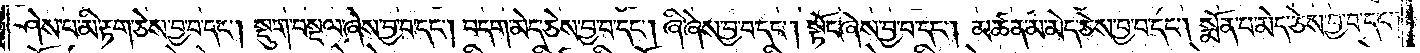ཤེས་པ་མི་རྟག་ཅེས་བྱ་བ་དང༌། སྡུག་བསྔལ་ཞེས་བྱ་བ་དང༌། བདག་མེད་ཅེས་བྱ་བ་དང༌། ཞི་ཞེས་བྱ་བ་དང༌། སྟོང་ཞེས་བྱ་བ་དང༌། མཚན་མ་མེད་ཅེས་བྱ་བ་དང༌། སྨོན་པ་མེད་ཅེས་བྱ་བ་དང༌།
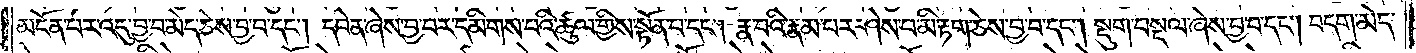མངོན་པར་འདུ་བྱ་བ་མེད་ཅེས་བྱ་བ་དང༌། དབེན་ཞེས་བྱ་བར་དམིགས་པའི་ཚུལ་གྱིས་སྟོན་པ་དང༌། རྣ་བའི་རྣམ་པར་ཤེས་པ་མི་རྟག་ཅེས་བྱ་བ་དང༌། སྡུག་བསྔལ་ཞེས་བྱ་བ་དང༌། བདག་མེད་
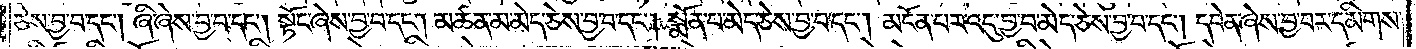ཅེས་བྱ་བ་དང༌། ཞི་ཞེས་བྱ་བ་དང༌། སྟོང་ཞེས་བྱ་བ་དང༌། མཚན་མ་མེད་ཅེས་བྱ་བ་དང༌། སྨོན་པ་མེད་ཅེས་བྱ་བ་དང༌། མངོན་པར་འདུ་བྱ་བ་མེད་ཅེས་བྱ་བ་དང༌། དབེན་ཞེས་བྱ་བར་དམིགས་
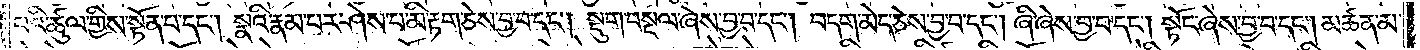པའི་ཚུལ་གྱིས་སྟོན་པ་དང༌། སྣའི་རྣམ་པར་ཤེས་པ་མི་རྟག་ཅེས་བྱ་བ་དང༌། སྡུག་བསྔལ་ཞེས་བྱ་བ་དང༌། བདག་མེད་ཅེས་བྱ་བ་དང༌། ཞི་ཞེས་བྱ་བ་དང༌། སྟོང་ཞེས་བྱ་བ་དང༌། མཚན་མ་
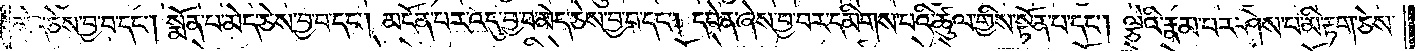མེད་ཅེས་བྱ་བ་དང༌། སྨོན་པ་མེད་ཅེས་བྱ་བ་དང༌། མངོན་པར་འདུ་བྱ་བ་མེད་ཅེས་བྱ་བ་དང༌། དབེན་ཞེས་བྱ་བར་དམིགས་པའི་ཚུལ་གྱིས་སྟོན་པ་དང༌། ལྕེའི་རྣམ་པར་ཤེས་པ་མི་རྟག་ཅེས་
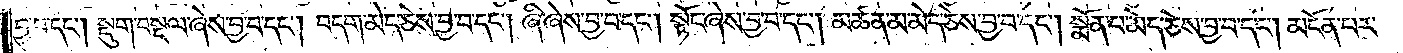བྱ་བ་དང༌། སྡུག་བསྔལ་ཞེས་བྱ་བ་དང༌། བདག་མེད་ཅེས་བྱ་བ་དང༌། ཞི་ཞེས་བྱ་བ་དང༌། སྟོང་ཞེས་བྱ་བ་དང༌། མཚན་མ་མེད་ཅེས་བྱ་བ་དང༌། སྨོན་པ་མེད་ཅེས་བྱ་བ་དང༌། མངོན་པར་
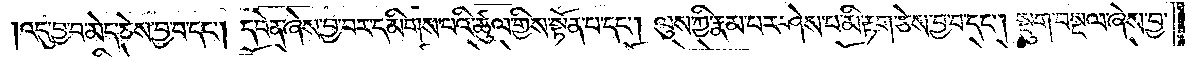འདུ་བྱ་བ་མེད་ཅེས་བྱ་བ་དང༌། དབེན་ཞེས་བྱ་བར་དམིགས་པའི་ཚུལ་གྱིས་སྟོན་པ་དང༌། ལུས་ཀྱི་རྣམ་པར་ཤེས་པ་མི་རྟག་ཅེས་བྱ་བ་དང༌། སྡུག་བསྔལ་ཞེས་བྱ་
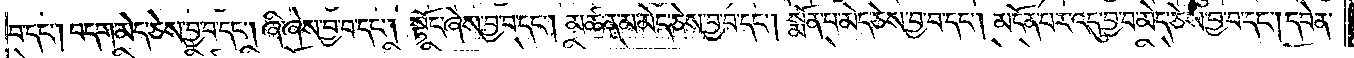བ་དང༌། བདག་མེད་ཅེས་བྱ་བ་དང༌། ཞི་ཞེས་བྱ་བ་དང༌། སྟོང་ཞེས་བྱ་བ་དང༌། མཚན་མ་མེད་ཅེས་བྱ་བ་དང༌། སྨོན་པ་མེད་ཅེས་བྱ་བ་དང༌། མངོན་པར་འདུ་བྱ་བ་མེད་ཅེས་བྱ་བ་དང༌། དབེན་
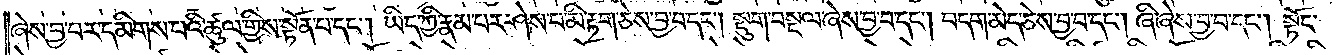ཞེས་བྱ་བར་དམིགས་པའི་ཚུལ་གྱིས་སྟོན་པ་དང༌། ཡིད་ཀྱི་རྣམ་པར་ཤེས་པ་མི་རྟག་ཅེས་བྱ་བ་དང༌། སྡུག་བསྔལ་ཞེས་བྱ་བ་དང༌། བདག་མེད་ཅེས་བྱ་བ་དང༌། ཞི་ཞེས་བྱ་བ་དང༌། སྟོང་
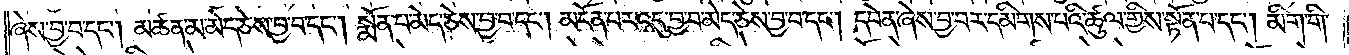ཞེས་བྱ་བ་དང༌། མཚན་མ་མེད་ཅེས་བྱ་བ་དང༌། སྨོན་པ་མེད་ཅེས་བྱ་བ་དང༌། མངོན་པར་འདུ་བྱ་བ་མེད་ཅེས་བྱ་བ་དང༌། དབེན་ཞེས་བྱ་བར་དམིགས་པའི་ཚུལ་གྱིས་སྟོན་པ་དང༌། མིག་གི་
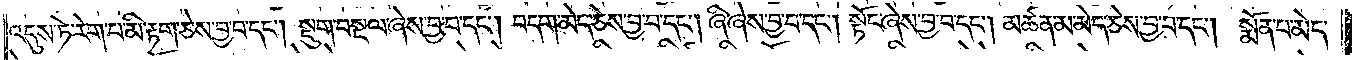འདུས་ཏེ་རེག་པ་མི་རྟག་ཅེས་བྱ་བ་དང༌། སྡུག་བསྔལ་ཞེས་བྱ་བ་དང༌། བདག་མེད་ཅེས་བྱ་བ་དང༌། ཞི་ཞེས་བྱ་བ་དང༌། སྟོང་ཞེས་བྱ་བ་དང༌། མཚན་མ་མེད་ཅེས་བྱ་བ་དང༌། སྨོན་པ་མེད་
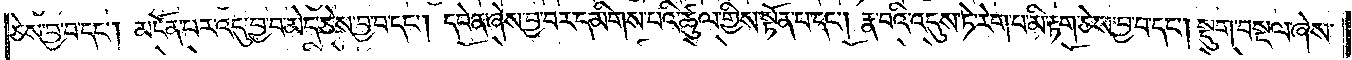ཅེས་བྱ་བ་དང༌། མངོན་པར་འདུ་བྱ་བ་མེད་ཅེས་བྱ་བ་དང༌། དབེན་ཞེས་བྱ་བར་དམིགས་པའི་ཚུལ་གྱིས་སྟོན་པ་དང༌། རྣ་བའི་འདུས་ཏེ་རེག་པ་མི་རྟག་ཅེས་བྱ་བ་དང༌། སྡུག་བསྔལ་ཞེས་
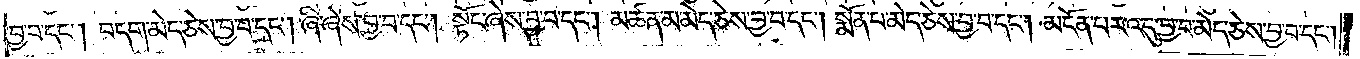བྱ་བ་དང༌། བདག་མེད་ཅེས་བྱ་བ་དང༌། ཞི་ཞེས་བྱ་བ་དང༌། སྟོང་ཞེས་བྱ་བ་དང༌། མཚན་མ་མེད་ཅེས་བྱ་བ་དང༌། སྨོན་པ་མེད་ཅེས་བྱ་བ་དང༌། མངོན་པར་འདུ་བྱ་བ་མེད་ཅེས་བྱ་བ་དང༌།
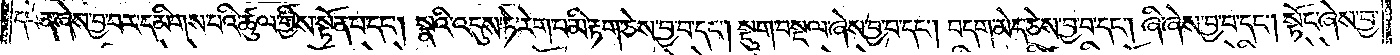དབེན་ཞེས་བྱ་བར་དམིགས་པའི་ཚུལ་གྱིས་སྟོན་པ་དང༌། སྣའི་འདུས་ཏེ་རེག་པ་མི་རྟག་ཅེས་བྱ་བ་དང༌། སྡུག་བསྔལ་ཞེས་བྱ་བ་དང༌། བདག་མེད་ཅེས་བྱ་བ་དང༌། ཞི་ཞེས་བྱ་བ་དང༌། སྟོང་ཞེས་བྱ་
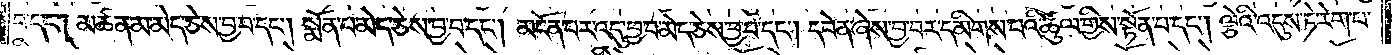བ་དང༌། མཚན་མ་མེད་ཅེས་བྱ་བ་དང༌། སྨོན་པ་མེད་ཅེས་བྱ་བ་དང༌། མངོན་པར་འདུ་བྱ་བ་མེད་ཅེས་བྱ་བ་དང༌། དབེན་ཞེས་བྱ་བར་དམིགས་པའི་ཚུལ་གྱིས་སྟོན་པ་དང༌། ལྕེའི་འདུས་ཏེ་རེག་པ་
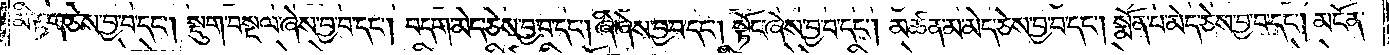མི་རྟག་ཅེས་བྱ་བ་དང༌། སྡུག་བསྔལ་ཞེས་བྱ་བ་དང༌། བདག་མེད་ཅེས་བྱ་བ་དང༌། ཞི་ཞེས་བྱ་བ་དང༌། སྟོང་ཞེས་བྱ་བ་དང༌། མཚན་མ་མེད་ཅེས་བྱ་བ་དང༌། སྨོན་པ་མེད་ཅེས་བྱ་བ་དང༌། མངོན་
